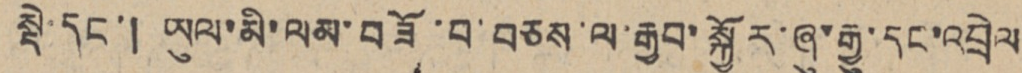སྡེ་དང་། ཡུལ་མི་ལས་བཟོ་བ་བཅས་ལ་རྒྱབ་སྐྱོར་ཞུ་རྒྱུ་དང་འབྲེལ
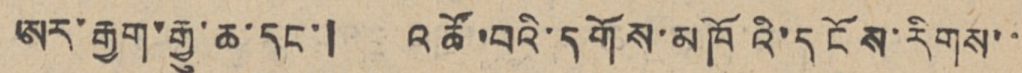ཨར་རྒྱག་རྒྱུ་ཆ་དང་། འཚོ་བའི་དགོས་མཁོའི་དངོས་རིགས་་
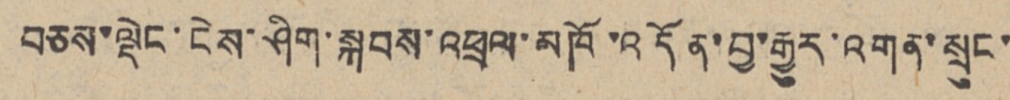བཅས་ལྡེང་ངེས་ཤིག་སྐབས་འཕྲལ་མཁོ་འདོན་བྱ་རྒྱུར་འགན་སྲུང་་
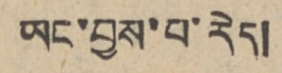ཡང་བྱས་པ་རེད།
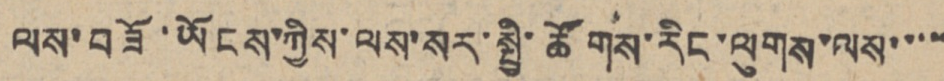ལས་བཟོ་ཡོངས་ཀྱིས་ལས་སར་སྤྱི་ཚོགས་རིང་ལུགས་ལས་་་་་
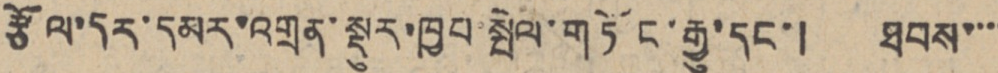རྩོལ་དར་དམར་འགྲན་སྡུར་ཁྱབ་སྤེལ་གཏོང་རྒྱུ་དང་། ཐབས་་་་
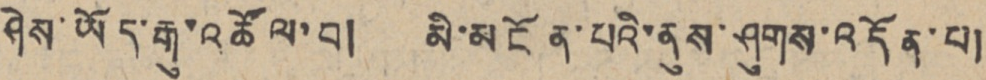ཤེས་ཡོད་རྒུ་འཚོལ་བ། མི་མངོན་པའི་ནུས་ཤུགས་འདོན་པ།
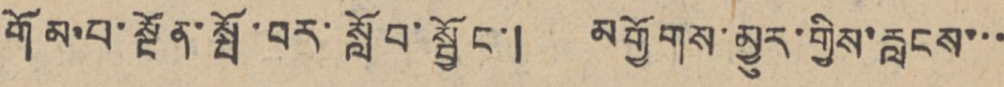གོམ་པ་སྔོན་སྤོ་བར་སློབ་སྦྱོང་། མགྱོགས་མྱུར་གྱིས་རླངས་་་
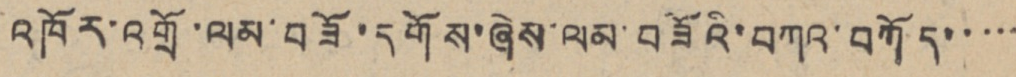འཁོར་འགྲོ་ལམ་བཟོ་དགོས་ཞེས་ལམ་བཟོའི་བཀའ་བཀོད་་་་་
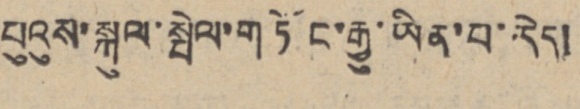པུའུས་སྐུལ་སྤེལ་གཏོང་རྒྱུ་ཡིན་པ་རེད།
